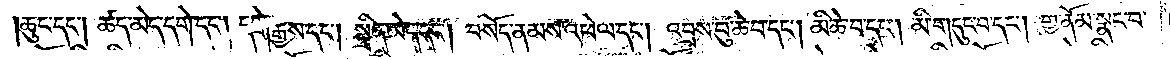ཆུང་དང༌། ཚད་མེད་དགེ་དང༌། དགེ་རྒྱས་དང༌། སྤྲིན་མེད་དང༌། བསོད་ནམས་འཕེལ་དང༌། འབྲས་བུ་ཆེ་བ་དང༌། མི་ཆེ་བ་དང༌། མི་གདུང་བ་དང༌། གྱ་ནོམ་སྣང་བ་
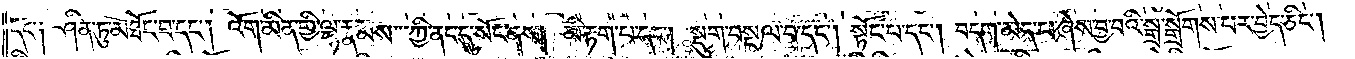དང༌། ཤིན་ཏུ་མཐོང་བ་དང༌། འོག་མིན་གྱི་ལྷ་རྣམས་ཀྱི་ནང་དུ་སོང་ནས། མི་རྟག་པ་དང༌། སྡུག་བསྔལ་བ་དང༌། སྟོང་པ་དང༌། བདག་མེད་པ་ཞེས་བྱ་བའི་སྒྲ་སྒྲོགས་པར་བྱེད་ཅིང༌།
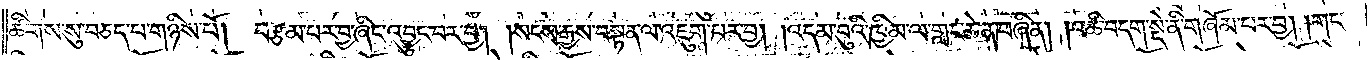ཚིགས་སུ་བཅད་པ་གཉིས་པོ། བརྩམས་པར་བྱ་ཞིང་འབྱུང་བར་བྱ། །སངས་རྒྱས་བསྟན་ལ་འཇུག་པར་བྱ། །འདམ་བུའི་ཁྱིམ་ལ་གླང་ཆེན་བཞིན། །འཆི་བདག་སྡེ་ནི་གཞོམ་པར་བྱ། །གང་
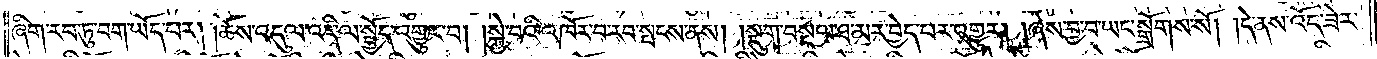ཞིག་རབ་ཏུ་བག་ཡོད་པར། །ཆོས་འདུལ་འདི་ལ་སྤྱོད་འགྱུར་བ། །སྐྱེ་བའི་འཁོར་བ་རབ་སྤངས་ནས། །སྡུག་བསྔལ་ཐ་མར་བྱེད་པར་འགྱུར། །ཞེས་བྱ་བ་ཡང་སྒྲོགས་སོ། །དེ་ནས་འོད་ཟེར་
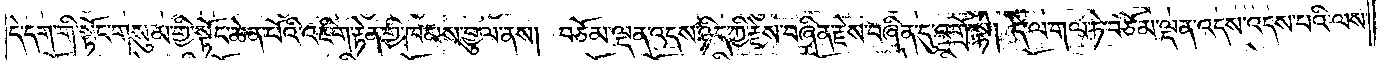དེ་དག་གི་སྟོང་གསུམ་གྱི་སྟོང་ཆེན་པོའི་འཇིག་རྟེན་གྱི་ཁམས་བྱུལ་ནས། བཅོམ་ལྡན་འདས་ཉིད་ཀྱི་རྗེས་བཞིན་རྗེས་བཞིན་དུ་འགྲོ་སྟེ། དེ་ལ་གལ་ཏེ་བཅོམ་ལྡན་འདས་འདས་པའི་ལས་
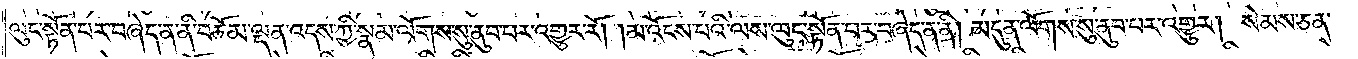ལུང་སྟོན་པར་བཞེད་ན་ནི་བཅོམ་ལྡན་འདས་ཀྱི་སྣམ་ལོགས་སུ་ནུབ་པར་འགྱུར་རོ། །མ་འོངས་པའི་ལས་ལུང་སྟོན་པར་བཞེད་ན་ནི། མདུན་ལོགས་སུ་ནུབ་པར་འགྱུར། སེམས་ཅན་
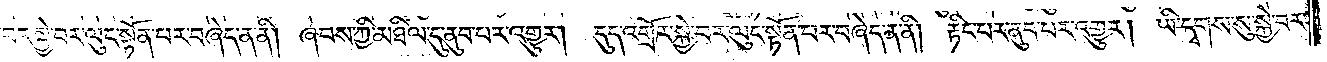བར་སྐྱེ་བར་ལུང་སྟོན་པར་བཞེད་ན་ནི། ཞབས་ཀྱི་མཐིལ་དུ་ནུབ་པར་འགྱུར། དུད་འགྲོར་སྐྱེ་བར་ལུང་སྟོན་པར་བཞེད་ན་ནི། རྟིང་པར་ནུབ་པར་འགྱུར། ཡི་དྭགས་སུ་སྐྱེ་བར་
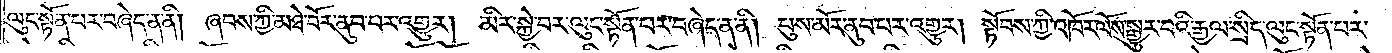ལུང་སྟོན་བར་བཞེད་ན་ནི། ཞབས་ཀྱི་མཐེ་བོར་ནུབ་པར་འགྱུར། མིར་སྐྱེ་བར་ལུང་སྟོན་པར་བཞེད་ན་ནི། པུས་མོར་ནུབ་པར་འགྱུར། སྟོབས་ཀྱི་འཁོར་ལོས་སྒྱུར་བའི་རྒྱལ་སྲིད་ལུང་སྟོན་པར་
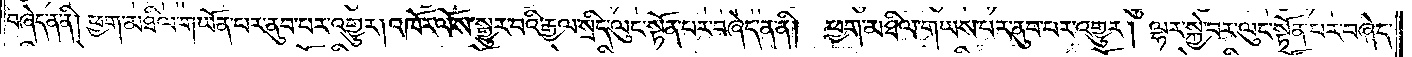བཞེད་ན་ནི། ཕྱག་མཐིལ་གཡོན་པར་ནུབ་པར་འགྱུར། འཁོར་ལོས་སྒྱུར་བའི་རྒྱལ་སྲིད་ལུང་སྟོན་པར་བཞེད་ན་ནི། ཕྱག་མཐིལ་གཡས་པར་ནུབ་པར་འགྱུར། ལྷར་སྐྱེ་བར་ལུང་སྟོན་པར་བཞེད་
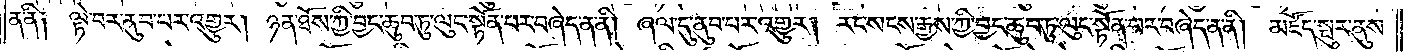ན་ནི། ལྟེ་བར་ནུབ་པར་འགྱུར། ཉན་ཐོས་ཀྱི་བྱང་ཆུབ་ཏུ་ལུང་སྟོན་པར་བཞེད་ན་ནི། ཞལ་དུ་ནུབ་པར་འགྱུར། རང་སངས་རྒྱས་ཀྱི་བྱང་ཆུབ་ཏུ་ལུང་སྟོན་པར་བཞེད་ན་ནི། མཛོད་སྤུར་ནུས་
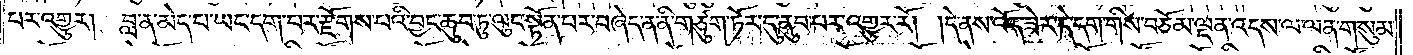པར་འགྱུར། བླ་ན་མེད་པ་ཡང་དག་པར་རྫོགས་པའི་བྱང་ཆུབ་ཏུ་ལུང་སྟོན་པར་བཞེད་ན་ནི་གཙུག་ཏོར་དུ་ནུབ་པར་འགྱུར་རོ། །དེ་ནས་འོད་ཟེར་དེ་དག་གིས་བཅོམ་ལྡན་འདས་ལ་ལན་གསུམ་
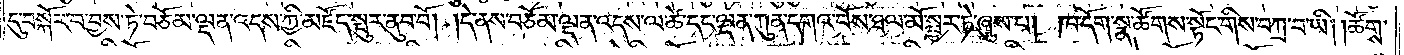དུ་བསྐོར་བ་བྱས་ཏེ་བཅོམ་ལྡན་འདས་ཀྱི་མཛོད་སྤུར་ནུབ་བོ། །དེ་ནས་བཅོམ་ལྡན་འདས་ལ་ཚེ་དང་ལྡན་ཀུན་དགའ་བོས་ཐལ་མོ་སྦྱར་ཏེ་ཞུས་པ། ཁ་དོག་སྣ་ཚོགས་སྟོང་གིས་བཀྲ་བ་ཡི། །ཚོགས་
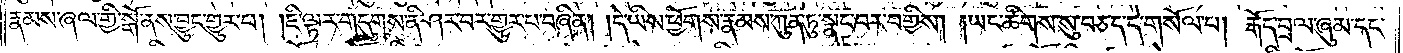རྣམས་ཞལ་གྱི་སྒོ་ནས་བྱུང་གྱུར་པ། །ཇི་ལྟར་གདུགས་ནི་ཤར་བར་གྱུར་པ་བཞིན། །དེ་ཡིས་ཕྱོགས་རྣམས་ཀུན་ཏུ་སྣང་བར་བགྱིས། །ཡང་ཚིགས་སུ་བཅད་དེ་གསོལ་པ། རྒོད་བྲལ་ཞུམ་དང་
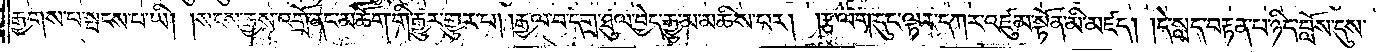རྒྱགས་པ་སྤངས་པ་ཡི། །སངས་རྒྱས་འགྲོ་ནང་མཆོག་གི་རྒྱུར་གྱུར་པ། །རྒྱལ་བ་དགྲ་ཐུལ་བྱེད་རྒྱུ་མ་མཆིས་པར། །རྩ་ལག་དུང་ལྟར་དཀར་འཛུམ་སྟོན་མི་མཛད། །དེ་སླད་བརྟན་པ་ཉིད་བློས་དུས་
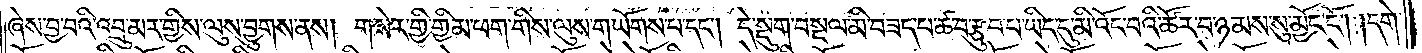ཞེས་བྱ་བའི་འབྲུ་མར་གྱིས་ལུས་བྱུགས་ནས། གསེར་གྱི་གྱིམ་ཕག་གིས་ལུས་གཡོགས་པ་དང༌། དེ་སྡུག་བསྔལ་མི་བཟད་པ་ཚ་བ་རྩུབ་པ་ཡིད་དུ་མི་འོང་བའི་ཚོར་བ་ཉམས་སུ་མྱོང་ངོ༌། །དགེ་
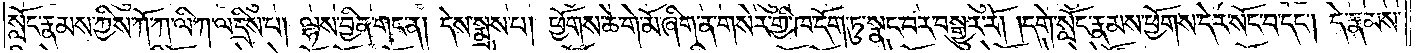སློང་རྣམས་ཀྱིས་ཀོ་ཀ་ལི་ཀ་ལ་དྲིས་པ། ལྷས་བྱིན་གང་ན། དེས་སྨྲས་པ། ཕྱོགས་ཆེ་གེ་མོ་ཞིག་ན་གསེར་གྱི་ཁ་དོག་ཏུ་སྣང་བར་བསྒྱུར་རོ། །དགེ་སློང་རྣམས་ཕྱོགས་དེར་སོང་བ་དང༌། དེ་རྣམས་
